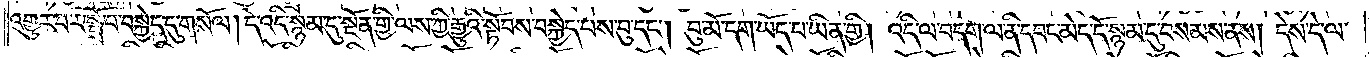འགྱུར་བར་སྤྲོ་བ་བསྐྱེད་དུ་གསོལ། དེ་འདི་སྙམ་དུ་སྔོན་གྱི་ལས་ཀྱི་རྒྱུའི་སྟོབས་བསྐྱེད་པས་བུ་དང༌། བུ་མོ་དག་ཡོད་པ་ཡིན་གྱི། འདི་ལ་བདག་ལ་ནི་དབང་མེད་དོ་སྙམ་དུ་བསམས་ནས། དེས་དེ་ལ་
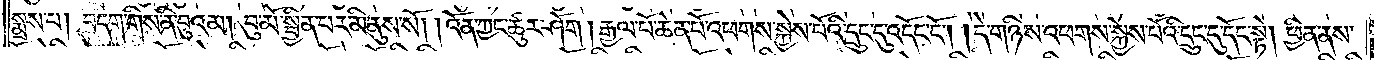སྨྲས་པ། བདག་གིས་ནི་བུའམ། བུ་མོ་སྦྱིན་པར་མི་ནུས་སོ། །འོན་ཀྱང་ཚུར་ཤོག །རྒྱལ་པོ་ཆེན་པོ་འཕགས་སྐྱེས་པོའི་དྲུང་དུ་འདོང་ངོ༌། །དེ་གཉིས་འཕགས་སྐྱེས་པོའི་དྲུང་དུ་དོང་སྟེ། ཕྱིན་ནས་
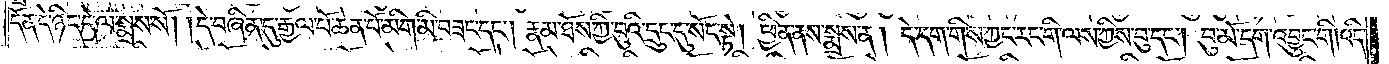དོན་དེ་ཉིད་དེ་ལ་སྨྲས་སོ། །དེ་བཞིན་དུ་རྒྱལ་པོ་ཆེན་པོ་མིག་མི་བཟང་དང༌། རྣམ་ཐོས་ཀྱི་བུའི་དྲུང་དུ་སོང་སྟེ། ཕྱིན་ནས་སྨྲས་ན། དེ་དག་གིས་ཀྱང་རང་གི་ལས་ཀྱིས་བུ་དང༌། བུ་མོ་དག་འབྱུང་གི། འདི་
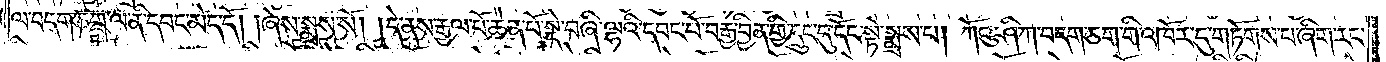ལ་བདག་ཅག་ལ་ནི་དབང་མེད་དོ། །ཞེས་སྨྲས་སོ། །དེ་ནས་རྒྱལ་པོ་ཆེན་པོ་སྡེ་བཞི་ལྷའི་དབང་པོ་བརྒྱ་བྱིན་གྱི་དྲུང་དུ་དོང་སྟེ་སྨྲས་པ། ཀོའུ་ཤི་ཀ་བདག་ཅག་གི་འཁོར་དུ་གཏོགས་པ་ཞིག་རང་
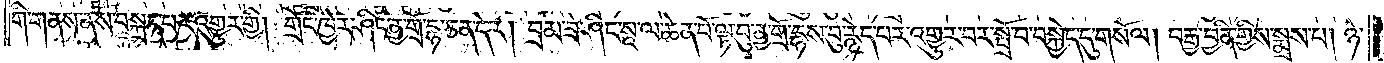གི་གནས་ནས་བསྐྲད་པར་འགྱུར་གྱི། གྲོང་ཁྱེར་ཤིང་ནྱ་གྲོ་དྷ་ཅན་དེར། བྲམ་ཟེ་ཤིང་སཱ་ལ་ཆེན་པོ་ལྟ་བུ་ནྱ་གྲོ་དྷས་བུ་རྙེད་པར་འགྱུར་བར་སྤྲོ་བ་བསྐྱེད་དུ་གསོལ། བརྒྱ་བྱིན་གྱིས་སྨྲས་པ། ཉེ་
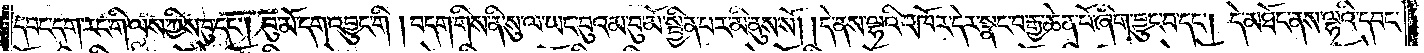དབང་དག་རང་གི་ལས་ཀྱིས་བུ་དང༌། བུ་མོ་དག་འབྱུང་གི །བདག་གིས་ནི་སུ་ལ་ཡང་བུའམ་བུ་མོ་སྦྱིན་པར་མི་ནུས་སོ། །དེ་ནས་ལྷའི་འཁོར་དེར་སྣང་བ་རྒྱ་ཆེན་པོ་ཞིག་བྱུང་བ་དང༌། དེ་མཐོང་ནས་ལྷའི་དབང་
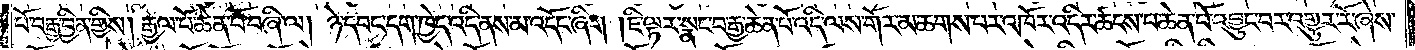པོ་བརྒྱ་བྱིན་གྱིས། རྒྱལ་པོ་ཆེན་པོ་བཞི་ལ། ཉེ་དབང་དག་ཁྱེད་འདི་ནས་མ་འདོང་ཞིག །ཇི་ལྟར་སྣང་བ་རྒྱ་ཆེན་པོ་འདི་ལས་གོར་མ་ཆགས་པར་འཁོར་འདིར་ཚངས་པ་ཆེན་པོ་འབྱུང་བར་འགྱུར་རོ་ཞེས་
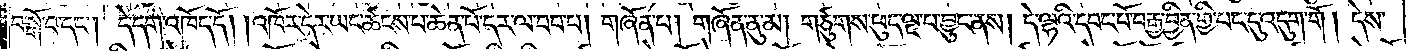བསྒོ་བ་དང༌། དེ་དག་འཁོད་དོ། །འཁོར་དེར་ཡང་ཚངས་པ་ཆེན་པོ་དར་ལ་བབ་པ། གཞོན་པ། གཞོན་ནུ་མ། གཙུགས་ཕུད་ལྔ་པ་བྱུང་ནས། དེ་ལྷའི་དབང་པོ་བརྒྱ་བྱིན་གྱི་པང་དུ་འདུག་གོ ། དེས་
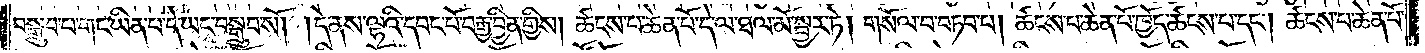བསྒྲུབ་པ་གང་ཡིན་པ་དེ་ཡང་བསྒྲུབ་སོ། །དེ་ནས་ལྷའི་དབང་པོ་བརྒྱ་བྱིན་གྱིས། ཚངས་པ་ཆེན་པོ་དེ་ལ་ཐལ་མོ་སྦྱར་ཏེ། གསོལ་བ་བཏབ་པ། ཚངས་པ་ཆེན་པོ་ཁྱོད་ཚངས་པ་དང༌། ཚངས་པ་ཆེན་པོ་
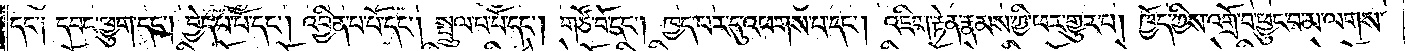དང་༑ དབང་ཕྱུག་དང༌། བྱེད་པ་པོ་དང༌། འབྱིན་པ་པོ་དང༌། སྤྲུལ་པ་པོ་དང༌། གཙོ་བོ་དང༌། ཁྱད་པར་དུ་འཕགས་པ་དང༌། འཇིག་རྟེན་རྣམས་ཀྱི་ཕར་གྱུར་པ། ཁྱོད་ཀྱིས་འགྲོ་བ་ཕྱུང་བ་མ་ལགས་
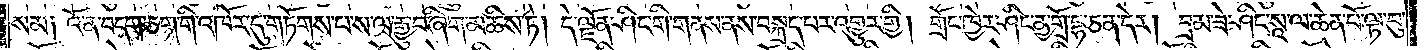སམ༑ འོ་ན་བདག་ཅག་གི་འཁོར་དུ་གཏོགས་པ་ས་ལ་རྒྱུ་བ་ཞིག་མཆིས་ཏེ། དེ་ལྗོན་ཤིང་གི་གནས་ནས་བསྐྲད་པར་འགྱུར་གྱི། གྲོང་ཁྱེར་ཤིང་ནྱ་གྲོ་དྷ་ཅན་དེར་། བྲམ་ཟེ་ཤིང་སཱ་ལ་ཆེན་པོ་ལྟ་བུ་
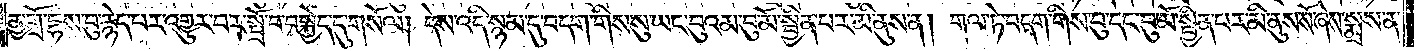ནྱ་གྲོ་དྷས་བུ་རྙེད་པར་འགྱུར་བར་སྤྲོ་བ་བསྐྱེད་དུ་གསོལ། དེས་འདི་སྙམ་དུ་བདག་གིས་སུ་ཡང་བུའམ་བུ་མོ་སྦྱིན་པར་མི་ནུས་ན། གལ་ཏེ་བདག་གིས་བུ་དང་བུ་མོ་སྦྱིན་པར་མི་ནུས་སོ་ཞེས་སྨྲས་ན་
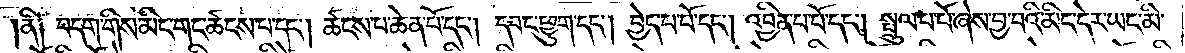ནི༑ བདག་གིས་མིང་གང་ཚངས་པ་དང༌། ཚངས་པ་ཆེན་པོ་དང༌། དབང་ཕྱུག་དང༌། བྱེད་པ་པོ་དང༌། འབྱིན་པ་པོ་དང༌། སྤྲུལ་པ་པོ་ཞེས་བྱ་བའི་མིང་དེར་ཡང་མི་
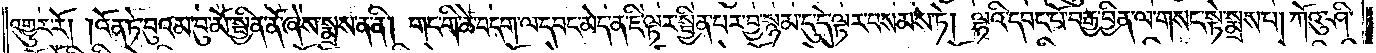འགྱུར་རོ། །འོན་ཏེ་བུའམ་བུ་མོ་སྦྱིན་ནོ་ཞེས་སྨྲས་ན་ནི། གང་གི་ཚེ་བདག་ལ་དབང་མེད་ན་ཇི་ལྟར་སྦྱིན་པར་བྱ་སྙམ་དུ་དེ་ལྟར་བསམས་ཏེ། ལྷའི་དབང་པོ་བརྒྱ་བྱིན་ལ་གསང་སྟེ་སྨྲས་པ། ཀོའུ་ཤི་
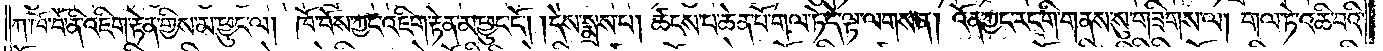ཀ་ཁོ་བོ་ནི་འཇིག་རྟེན་གྱིས་མ་ཕྱུང་ལ། ཁོ་བོས་ཀྱང་འཇིག་རྟེན་མ་ཕྱུང་ངོ༌། །དེས་སྨྲས་པ། ཚངས་པ་ཆེན་པོ་གལ་ཏེ་དེ་ལྟ་ལགས་ན། འོན་ཀྱང་རང་གི་གནས་སུ་གཟིགས་ལ། གལ་ཏེ་འཆི་བའི་
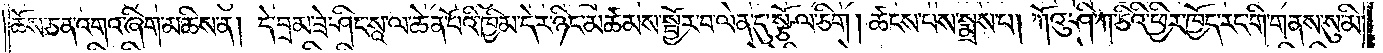ཆོས་ཅན་འགའ་ཞིག་མཆིས་ན། དེ་བྲམ་ཟེ་ཤིང་སཱ་ལ་ཆེན་པོའི་ཁྱིམ་དེར་ཉིང་མཚམས་སྦྱོར་བ་ལེན་དུ་སྩོལ་ཅིག །ཚངས་པས་སྨྲས་པ། ཀོའུ་ཤི་ཀ་ཅིའི་ཕྱིར་ཁྱོད་རང་གི་གནས་སུ་མི་
